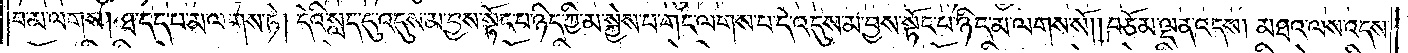བ་མ་ལགས། ཐ་དད་པ་མ་ལགས་ཏེ། དེའི་སླད་དུ་འདུས་མ་བྱས་སྟོང་པ་ཉིད་ཀྱི་མ་སྐྱེས་པ་གང་ལགས་པ་དེ་འདུས་མ་བྱས་སྟོང་པ་ཉིད་མ་ལགས་སོ། །བཅོམ་ལྡན་འདས། མཐའ་ལས་འདས་
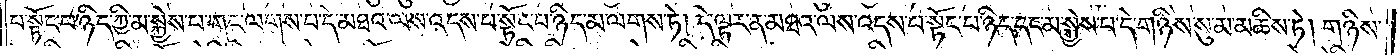པ་སྟོང་པ་ཉིད་ཀྱི་མ་སྐྱེས་པ་གང་ལགས་པ་དེ་མཐའ་ལས་འདས་པ་སྟོང་པ་ཉིད་མ་ལགས་ཏེ། དེ་ལྟར་ན་མཐའ་ལས་འདས་པ་སྟོང་པ་ཉིད་དང་མ་སྐྱེས་པ་དེ་གཉིས་སུ་མ་མཆིས་ཏེ། གཉིས་
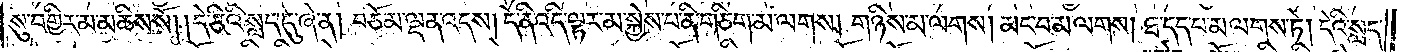སུ་བགྱིར་མ་མཆིས་སོ། །དེ་ཅིའི་སླད་དུ་ཞེ་ན། བཅོམ་ལྡན་འདས། དེ་ནི་འདི་ལྟར་མ་སྐྱེས་པ་ནི་གཅིག་མ་ལགས། གཉིས་མ་ལགས། མང་བ་མ་ལགས། ཐ་དད་པ་མ་ལགས་ཏེ། དེའི་སླད་
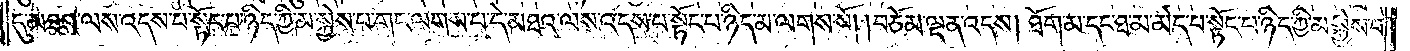དུ་མཐའ་ལས་འདས་པ་སྟོང་པ་ཉིད་ཀྱི་མ་སྐྱེས་པ་གང་ལགས་པ་དེ་མཐའ་ལས་འདས་པ་སྟོང་པ་ཉིད་མ་ལགས་སོ། །བཅོམ་ལྡན་འདས། ཐོག་མ་དང་ཐ་མ་མེད་པ་སྟོང་པ་ཉིད་ཀྱི་མ་སྐྱེས་པ་
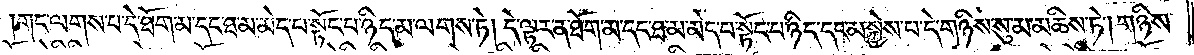གང་ལགས་པ་དེ་ཐོག་མ་དང་ཐ་མ་མེད་པ་སྟོང་པ་ཉིད་མ་ལགས་ཏེ། དེ་ལྟར་ན་ཐོག་མ་དང་ཐ་མ་མེད་པ་སྟོང་པ་ཉིད་དང་མ་སྐྱེས་པ་དེ་གཉིས་སུ་མ་མཆིས་ཏེ། གཉིས་
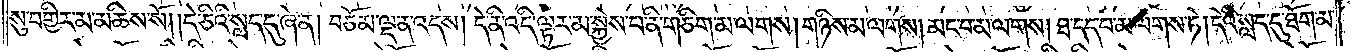སུ་བགྱིར་མ་མཆིས་སོ། །དེ་ཅིའི་སླད་དུ་ཞེ་ན། བཅོམ་ལྡན་འདས་དེ་ནི་འདི་ལྟར་མ་སྐྱེས་པ་ནི་གཅིག་མ་ལགས། གཉིས་མ་ལགས། མང་བ་མ་ལགས། ཐ་དད་པ་མ་ལགས་ཏེ། དེའི་སླད་དུ་ཐོག་མ་
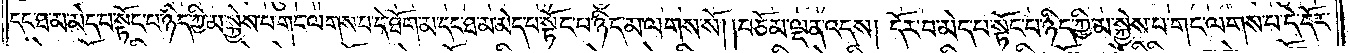དང་ཐ་མ་མེད་པ་སྟོང་པ་ཉིད་ཀྱི་མ་སྐྱེས་པ་གང་ལགས་པ་དེ་ཐོག་མ་དང་ཐ་མ་མེད་པ་སྟོང་པ་ཉིད་མ་ལགས་སོ། །བཅོམ་ལྡན་འདས། དོར་བ་མེད་པ་སྟོང་པ་ཉིད་ཀྱི་མ་སྐྱེས་པ་གང་ལགས་པ་དེ་དོར་
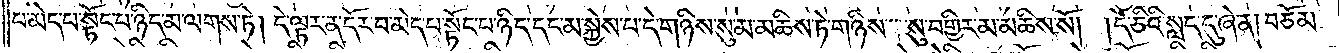བ་མེད་པ་སྟོང་པ་ཉིད་མ་ལགས་ཏེ། དེ་ལྟར་ན་དོར་བ་མེད་པ་སྟོང་པ་ཉིད་དང་མ་སྐྱེས་པ་དེ་གཉིས་སུ་མ་མཆིས་ཏེ་གཉིས་སུ་བགྱིར་མ་མཆིས་སོ། །དེ་ཅིའི་སླད་དུ་ཞེ་ན། བཅོམ་
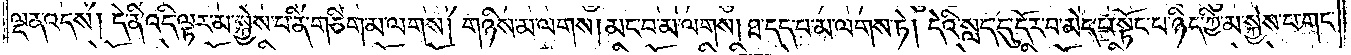ལྡན་འདས། དེ་ནི་འདི་ལྟར་མ་སྐྱེས་པ་ནི་གཅིག་མ་ལགས། གཉིས་མ་ལགས། མང་བ་མ་ལགས། ཐ་ད་པ་མ་ལགས་ཏེ། དེའི་སླད་དུ་དོར་བ་མེད་པ་སྟོང་པ་ཉིད་ཀྱི་མ་སྐྱེས་པ་གང་
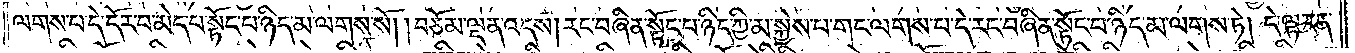ལགས་པ་དེ་དོར་བ་མེད་པ་སྟོང་པ་ཉིད་མ་ལགས་སོ། །བཅོམ་ལྡན་འདས། རང་བཞིན་སྟོང་པ་ཉིད་ཀྱི་མ་སྐྱེས་པ་གང་ལགས་པ་དེ་རང་བཞིན་སྟོང་པ་ཉིད་མ་ལགས་ཏེ། དེ་ལྟར་ན་
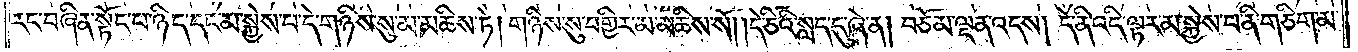རང་བཞིན་སྟོང་པ་ཉིད་དང་མ་སྐྱེས་པ་དེ་གཉིས་སུ་མ་མཆིས་ཏེ། གཉིས་སུ་བགྱིར་མ་མཆིས་སོ། །དེ་ཅིའི་སླད་དུ་ཞེ་ན། བཅོམ་ལྡན་འདས། དེ་ནི་འདི་ལྟར་མ་སྐྱེས་པ་ནི་གཅིག་མ་
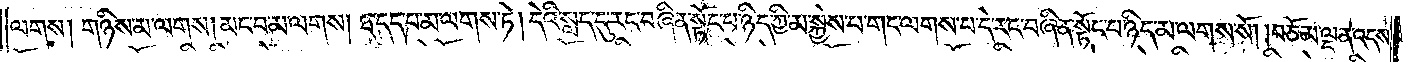ལགས། གཉིས་མ་ལགས། མང་བ་མ་ལགས། ཐ་དད་པ་མ་ལགས་ཏེ། དེའི་སླད་དུ་རང་བཞིན་སྟོང་པ་ཉིད་ཀྱི་མ་སྐྱེས་པ་གང་ལགས་པ་དེ་རང་བཞིན་སྟོང་པ་ཉིད་མ་ལགས་སོ། །བཅོམ་ལྡན་འདས་
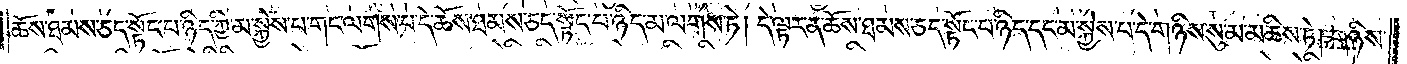ཆོས་ཐམས་ཅད་སྟོང་པ་ཉིད་ཀྱི་མ་སྐྱེས་པ་གང་ལགས་པ་དེ་ཆོས་ཐམས་ཅད་སྟོང་པ་ཉིད་མ་ལགས་ཏེ། དེ་ལྟར་ན་ཆོས་ཐམས་ཅད་སྟོང་པ་ཉིད་དང་མ་སྐྱེས་པ་དེ་གཉིས་སུ་མ་མཆིས་ཏེ། གཉིས་
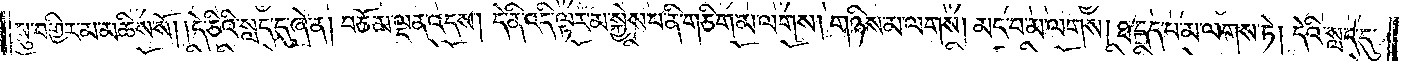སུ་བགྱིར་མ་མཆིས་སོ། །དེ་ཅིའི་སླད་དུ་ཞེ་ན། བཅོམ་ལྡན་འདས། དེ་ནི་འདི་ལྟར་མ་སྐྱེས་པ་ནི་གཅིག་མ་ལགས། གཉིས་མ་ལགས། མང་བ་མ་ལགས། ཐ་དད་པ་མ་ལགས་ཏེ། དེའི་སླད་དུ་
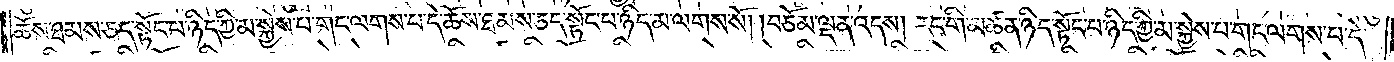ཆོས་ཐམས་ཅད་སྟོང་པ་ཉིད་ཀྱི་མ་སྐྱེས་པ་གང་ལགས་པ་དེ་ཆོས་ཐམས་ཅད་སྟོང་པ་ཉིད་མ་ལགས་སོ། །བཅོམ་ལྡན་འདས། རང་གི་མཚན་ཉིད་སྟོང་པ་ཉིད་ཀྱི་མ་སྐྱེས་པ་གང་ལགས་པ་དེ་
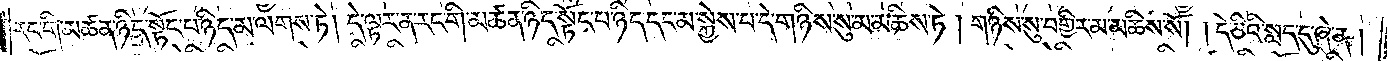རང་གི་མཚན་ཉིད་སྟོང་པ་ཉིད་མ་ལགས་ཏེ། དེ་ལྟར་ན་རང་གི་མཚན་ཉིད་སྟོང་པ་ཉིད་དང་མ་སྐྱེས་པ་དེ་གཉིས་སུ་མ་མཆིས་ཏེ། གཉིས་སུ་བགྱིར་མ་མཆིས་སོ། །དེ་ཅིའི་སླད་དུ་ཞེ་ན།
